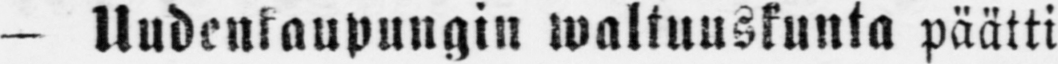- Uudenkaupungin waltuuskunta päätti
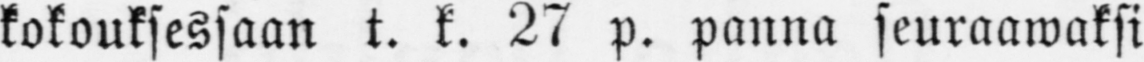kokouksessaan t. k. 27 p. panna seuraawaksi
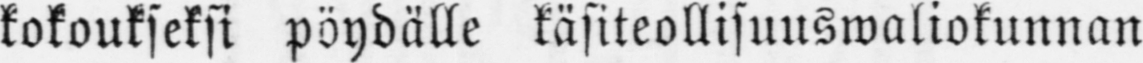kokoukseksi pöydälle käsiteollisuuswaliokunnan
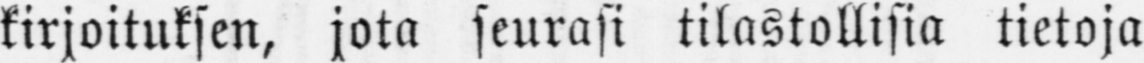kirjoituksen, jota seurasi tilastollisia tietoja
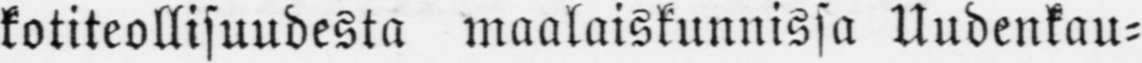kotiteollisuudesta maalaiskunnissa Uudenkau-
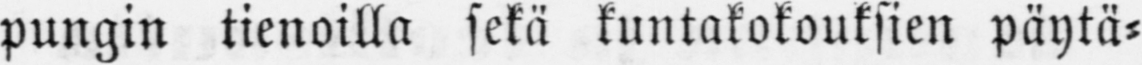pungin tienoilla sekä kuntakokouksien pöytä-
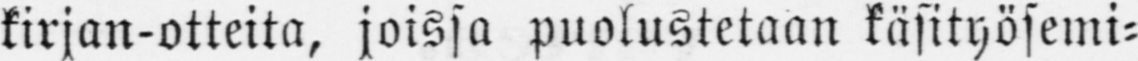kirjan-otteita, joissa puolustetaan käsityösemi-
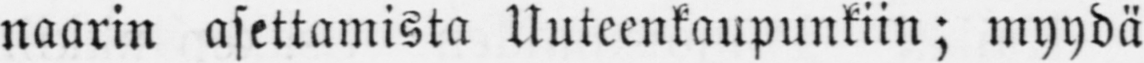naarin asettamista Uuteenkaupunkiin; myydä
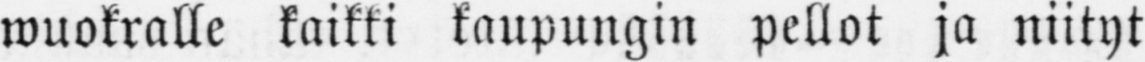wuokralle kaikki kaupungin pellot ja niityt
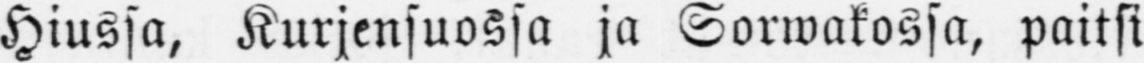Hiussa, Kurjensuossa ja Sorwakossa, paitsi
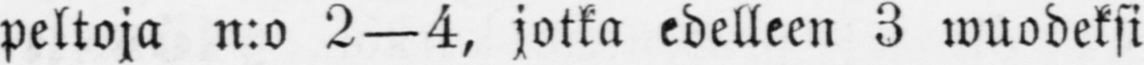peltoja n:o 2 — 4, jotka edelleen 3 wuodeksi
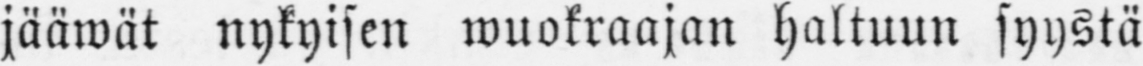jääwät nykyisen wuokraajan haltuun syystä
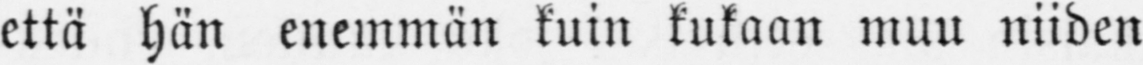että hän enemmän kuin kukaan muu niiden
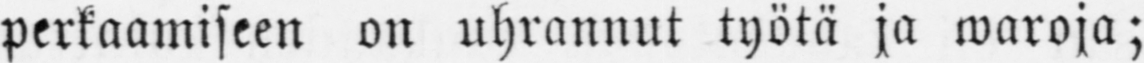perkaamiseen on uhrannut työtä ja waroja;
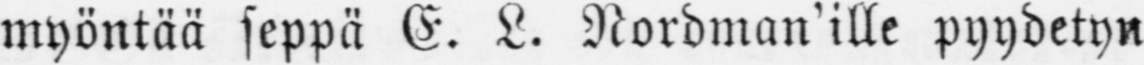myöntää seppä E. L. Nordman'ille pyydetyn
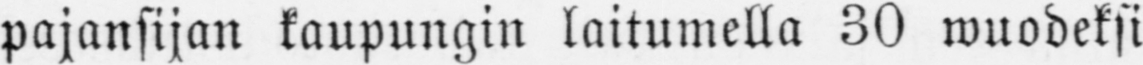pajansijan kaupungin laitumella 30 wuodeksi
